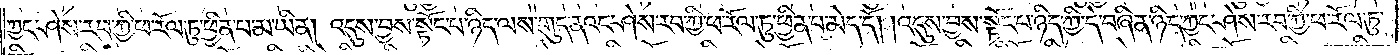ཀྱང་ཤེས་རབ་ཀྱི་ཕ་རོལ་ཏུ་ཕྱིན་པ་མ་ཡིན། འདུས་བྱས་སྟོང་པ་ཉིད་ལས་གུད་ནའང་ཤེས་རབ་ཀྱི་ཕ་རོལ་ཏུ་ཕྱིན་པ་མེད་དོ། །འདུས་བྱས་སྟོང་པ་ཉིད་ཀྱི་དེ་བཞིན་ཉིད་ཀྱང་ཤེས་རབ་ཀྱི་ཕ་རོལ་ཏུ་
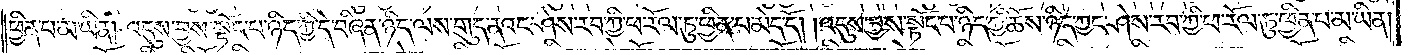ཕྱིན་པ་མ་ཡིན། འདུས་བྱས་སྟོང་པ་ཉིད་ཀྱི་དེ་བཞིན་ཉིད་ལས་གུད་ནའང་ཤེས་རབ་ཀྱི་ཕ་རོལ་ཏུ་ཕྱིན་པ་མེད་དོ། །འདུས་བྱས་སྟོང་པ་ཉིད་ཀྱི་ཆོས་ཉིད་ཀྱང་ཤེས་རབ་ཀྱི་ཕ་རོལ་ཏུ་ཕྱིན་པ་མ་ཡིན།
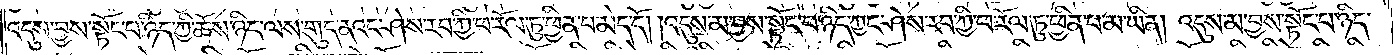འདུས་བྱས་སྟོང་པ་ཉིད་ཀྱི་ཆོས་ཉིད་ལས་གུད་ནའང་ཤེས་རབ་ཀྱི་ཕ་རོལ་ཏུ་ཕྱིན་པ་མེད་དོ། །འདུས་མ་བྱས་སྟོང་པ་ཉིད་ཀྱང་ཤེས་རབ་ཀྱི་ཕ་རོལ་ཏུ་ཕྱིན་པ་མ་ཡིན། འདུས་མ་བྱས་སྟོང་པ་ཉིད་
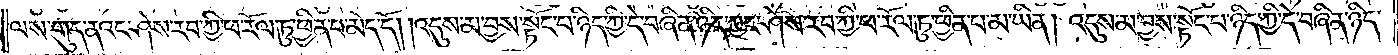ལས་གུད་ནའང་ཤེས་རབ་ཀྱི་ཕ་རོལ་ཏུ་ཕྱིན་པ་མེད་དོ། །འདུས་མ་བྱས་སྟོང་པ་ཉིད་ཀྱི་དེ་བཞིན་ཉིད་ཀྱང་ཤེས་རབ་ཀྱི་ཕ་རོལ་ཏུ་ཕྱིན་པ་མ་ཡིན། འདུས་མ་བྱས་སྟོང་པ་ཉིད་ཀྱི་དེ་བཞིན་ཉིད་
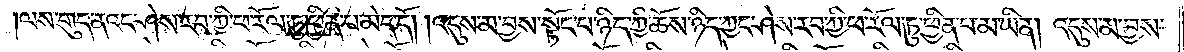ལས་གུད་ནའང་ཤེས་རབ་ཀྱི་ཕ་རོལ་ཏུ་ཕྱིན་པ་མེད་དོ། །འདུས་མ་བྱས་སྟོང་པ་ཉིད་ཀྱི་ཆོས་ཉིད་ཀྱང་ཤེས་རབ་ཀྱི་ཕ་རོལ་ཏུ་ཕྱིན་པ་མ་ཡིན། འདུས་མ་བྱས་
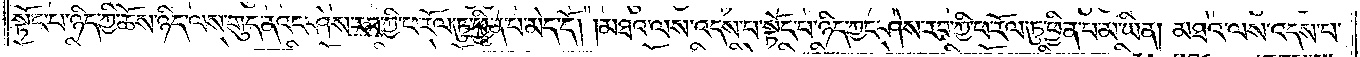སྟོང་པ་ཉིད་ཀྱི་ཆོས་ཉིད་ལས་གུད་ནའང་ཤེས་རབ་ཀྱི་ཕ་རོལ་ཏུ་ཕྱིན་པ་མེད་དོ། །མཐའ་ལས་འདས་པ་སྟོང་པ་ཉིད་ཀྱང་ཤེས་རབ་ཀྱི་ཕ་རོལ་ཏུ་ཕྱིན་པ་མ་ཡིན། མཐའ་ལས་འདས་པ་
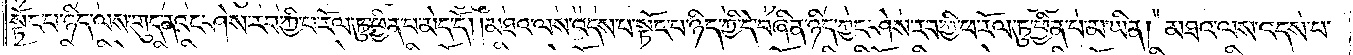སྟོང་པ་ཉིད་ལས་གུད་ནའང་ཤེས་རབ་ཀྱི་ཕ་རོལ་ཏུ་ཕྱིན་པ་མེད་དོ། །མཐའ་ལས་འདས་པ་སྟོང་པ་ཉིད་ཀྱི་དེ་བཞིན་ཉིད་ཀྱང་ཤེས་རབ་ཀྱི་ཕ་རོལ་ཏུ་ཕྱིན་པ་མ་ཡིན། མཐའ་ལས་འདས་པ་
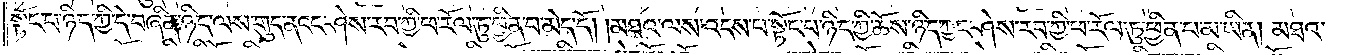སྟོང་པ་ཉིད་ཀྱི་དེ་བཞིན་ཉིད་ལས་གུད་ནའང་ཤེས་རབ་ཀྱི་ཕ་རོལ་ཏུ་ཕྱིན་པ་མེད་དོ། །མཐའ་ལས་འདས་པ་སྟོང་པ་ཉིད་ཀྱི་ཆོས་ཉིད་ཀྱང་ཤེས་རབ་ཀྱི་ཕ་རོལ་ཏུ་ཕྱིན་པ་མ་ཡིན། མཐའ་
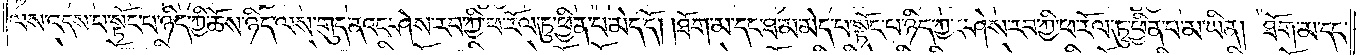ལས་འདས་པ་སྟོང་པ་ཉིད་ཀྱི་ཆོས་ཉིད་ལས་གུད་ནའང་ཤེས་རབ་ཀྱི་ཕ་རོལ་ཏུ་ཕྱིན་པ་མེད་དོ། །ཐོག་མ་དང་ཐ་མ་མེད་པ་སྟོང་པ་ཉིད་ཀྱང་ཤེས་རབ་ཀྱི་ཕ་རོལ་ཏུ་ཕྱིན་པ་མ་ཡིན། ཐོག་མ་དང་
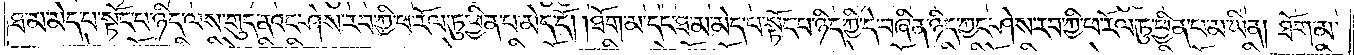ཐ་མ་མེད་པ་སྟོང་པ་ཉིད་ལས་གུད་ནའང་ཤེས་རབ་ཀྱི་ཕ་རོལ་ཏུ་ཕྱིན་པ་མེད་དོ། །ཐོག་མ་དང་ཐ་མ་མེད་པ་སྟོང་པ་ཉིད་ཀྱི་དེ་བཞིན་ཉིད་ཀྱང་ཤེས་རབ་ཀྱི་ཕ་རོལ་ཏུ་ཕྱིན་པ་མ་ཡིན། ཐོག་མ་
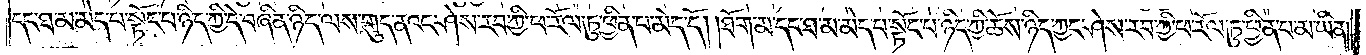དང་ཐ་མ་མེད་པ་སྟོང་པ་ཉིད་ཀྱི་དེ་བཞིན་ཉིད་ལས་གུད་ནའང་ཤེས་རབ་ཀྱི་ཕ་རོལ་ཏུ་ཕྱིན་པ་མེད་དོ། །ཐོག་མ་དང་ཐ་མ་མེད་པ་སྟོང་པ་ཉིད་ཀྱི་ཆོས་ཉིད་ཀྱང་ཤེས་རབ་ཀྱི་ཕ་རོལ་ཏུ་ཕྱིན་པ་མ་ཡིན།
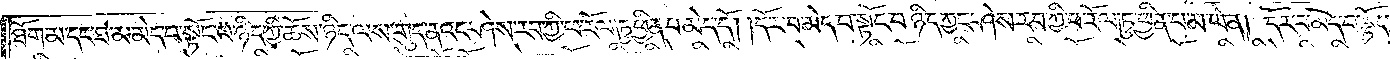ཐོག་མ་དང་ཐ་མ་མེད་པ་སྟོང་པ་ཉིད་ཀྱི་ཆོས་ཉིད་ལས་གུད་ནའང་ཤེས་རབ་ཀྱི་ཕ་རོལ་ཏུ་ཕྱིན་པ་མེད་དོ། །དོར་བ་མེད་པ་སྟོང་པ་ཉིད་ཀྱང་ཤེས་རབ་ཀྱི་ཕ་རོལ་ཏུ་ཕྱིན་པ་མ་ཡིན། དོར་བ་མེད་པ་སྟོང་
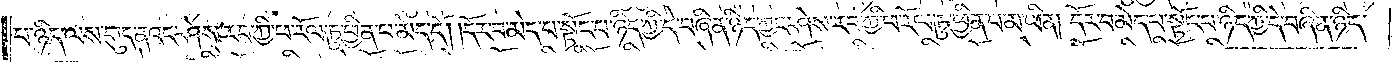པ་ཉིད་ལས་གུད་ནའང་ཤེས་རབ་ཀྱི་ཕ་རོལ་ཏུ་ཕྱིན་པ་མེད་དོ། །དོར་བ་མེད་པ་སྟོང་པ་ཉིད་ཀྱི་དེ་བཞིན་ཉིད་ཀྱང་ཤེས་རབ་ཀྱི་ཕ་རོལ་ཏུ་ཕྱིན་པ་མ་ཡིན། དོར་བ་མེད་པ་སྟོང་པ་ཉིད་ཀྱི་དེ་བཞིན་ཉིད་
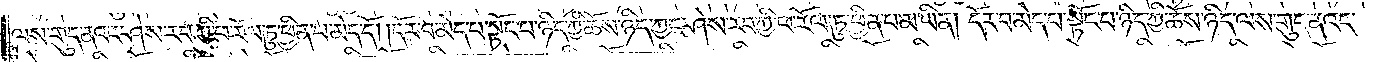ལས་གུད་ནའང་ཤེས་རབ་ཀྱི་ཕ་རོལ་ཏུ་ཕྱིན་པ་མེད་དོ། །དོར་བ་མེད་པ་སྟོང་པ་ཉིད་ཀྱི་ཆོས་ཉིད་ཀྱང་ཤེས་རབ་ཀྱི་ཕ་རོལ་ཏུ་ཕྱིན་པ་མ་ཡིན། དོར་བ་མེད་པ་སྟོང་པ་ཉིད་ཀྱི་ཆོས་ཉིད་ལས་གུད་ནའང་
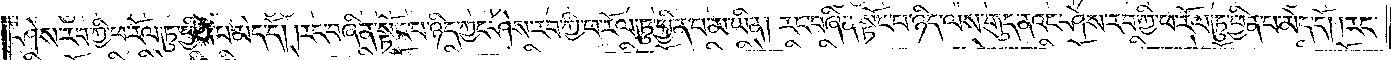ཤེས་རབ་ཀྱི་ཕ་རོལ་ཏུ་ཕྱིན་པ་མེད་དོ། །རང་བཞིན་སྟོང་པ་ཉིད་ཀྱང་ཤེས་རབ་ཀྱི་ཕ་རོལ་ཏུ་ཕྱིན་པ་མ་ཡིན། རང་བཞིན་སྟོང་པ་ཉིད་ལས་གུད་ནའང་ཤེས་རབ་ཀྱི་ཕ་རོལ་ཏུ་ཕྱིན་པ་མེད་དོ། །རང་
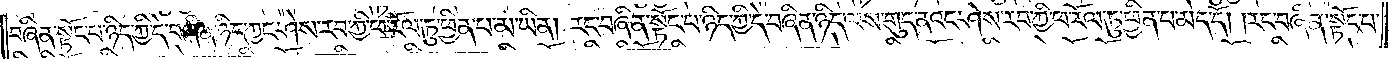བཞིན་སྟོང་པ་ཉིད་ཀྱི་དེ་བཞིན་ཉིད་ཀྱང་ཤེས་རབ་ཀྱི་ཕ་རོལ་ཏུ་ཕྱིན་པ་མ་ཡིན། རང་བཞིན་སྟོང་པ་ཉིད་ཀྱི་དེ་བཞིན་ཉིད་ལས་གུད་ནའང་ཤེས་རབ་ཀྱི་ཕ་རོལ་ཏུ་ཕྱིན་པ་མེད་དོ། །རང་བཞིན་སྟོང་པ་
